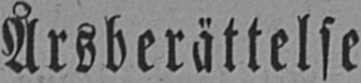Årsberättelse
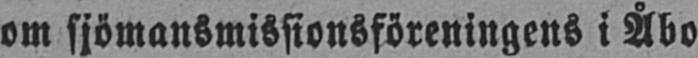om sjömansmissionsföreningens i Åbo
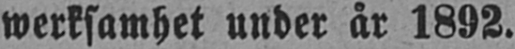werksamhet under år 1892.
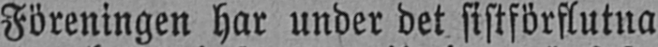Föreningen har under det sistförflutna
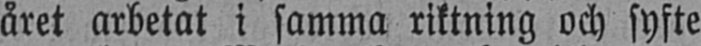året arbetat i samma riktning och syfte
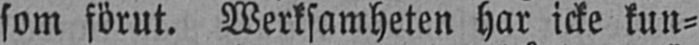som förut. Werksamheten har icke kun-
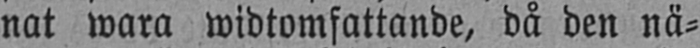nat wara widtomfattande, då den nä-
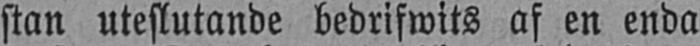stan uteslutande bedrifwits af en enda
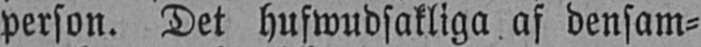person. Det hufwudsakliga af densam-
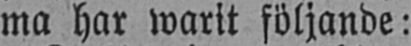ma har warit följande:
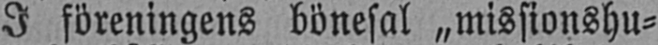I föreningens bönesal „missionshu-
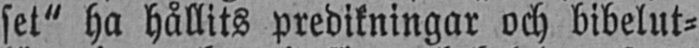set" ha hållits predikningar och bibelut-
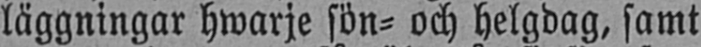läggningar hwarje sön- och helgdag, samt
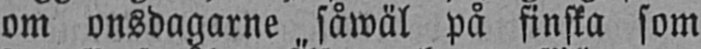om onsdagarne „såwäl på finska som
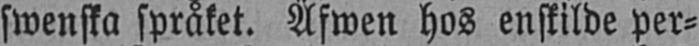swenska språket. Äfwen hos enskilde per-
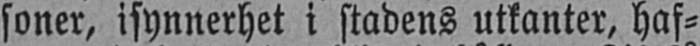soner, isynnerhet i stadens utkanter, haf-
